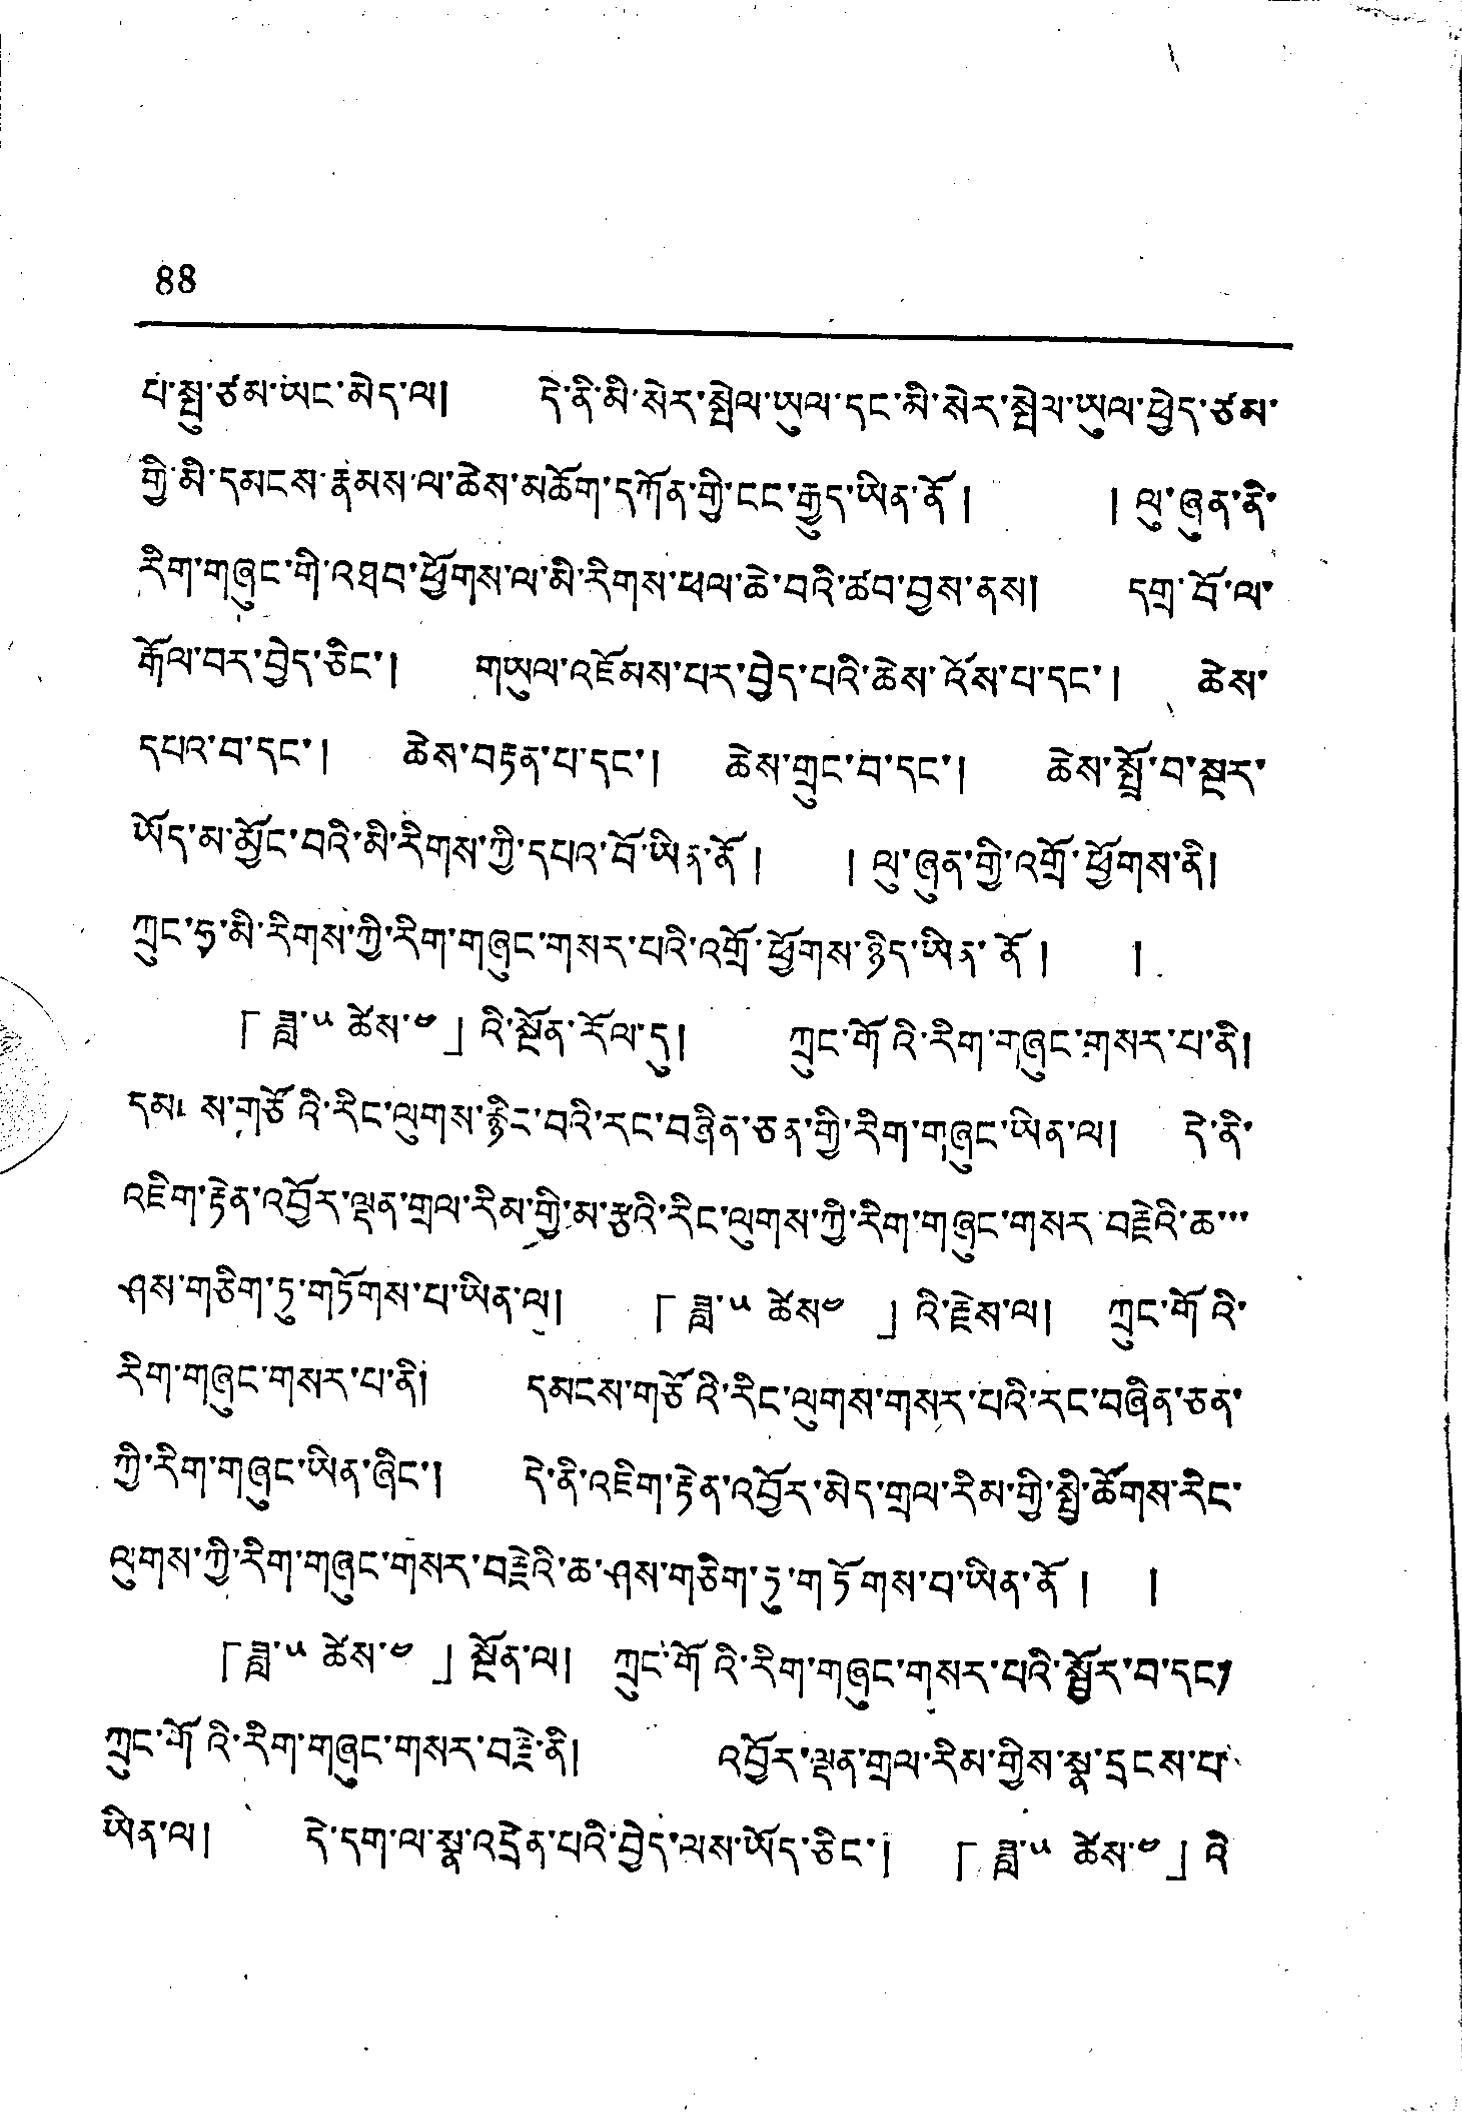88
པ་སྤུ་ཙམ་ཡང་མེད་ལ། དེ་ནི་མི་སེར་སྤེལ་ཡུལ་དང་མི་སེར་སྤེལ་ཡུལ་ཕྱེད་ཙམ་
གྱི་མི་དམངས་རྣམས་ལ་ཆེས་མཆོག་དཀོན་གྱི་ངང་རྒྱུད་ཡིན་ནོ ། །ལུ་ཞུན་ནི་
རིག་གཞུང་གི་འཐབ་ཕྱོགས་ལ་མི་རིགས་ཕལ་ཆེ་བའི་ཚབ་བྱས་ནས། དགྲ་བོ་ལ་
རྒོལ་བར་བྱེད་ཅིང་། གཡུལ་འཇོམས་པར་བྱེད་པའི་ཆེས་འོས་པ་དང་། ཚེས་
དཔའ་བ་དང་། ཆེས་བརྟན་པ་དང་། ཆེས་གྲུང་བ་དང་། ཆེས་སྤྲོ་བ་སྔར་
ཡོད་མ་སྱོང་བའི་མི་རིགས་ཀྱི་དཔའ་བོ་ཡིན་ནོ། །ལུ་ཞན་གྱི་འགྲོ་ཕྱོགས་ནི།
ཀྲུང་ཧྭ་མི་རིགས་ཀྱི་རིག་གཞུང་གསར་པའི་འགྲོ་ཕྱོགས་ཉིད་ཡིན་ནོ། །
「ཟླ་༥ ཚེས་༤」འི་སྔོན་རོལ་དུ། ཀྲུང་གོའི་རིག་གཞུང་གསར་པ་ནི།
དམངས་གཙོའི་རིང་ལུགས་རྙིང་བའི་རང་བཞིན་ཅན་གྱི་རིག་གཞུང་ཡིན་ལ། དེ་ནི་
འཇིག་རྟེན་འབྱོར་ལྡན་གྲལ་རིམ་གྱི་མ་རྩའི་རིང་ལུགས་ཀྱི་རིག་གཞུང་གསར་བརྗེའི་ཆ་་་
ཤས་གཅིག་ཏུ་གཏོགས་པ་ཡིན་ལ། 「ཟླ་༥ ཚེས༤ 」འི་རྗེས་ལ། ཀྲུང་གོའི་
རིག་གཞུང་གསར་པ་ནི། དམངས་གཙོའི་རིང་ལུགས་གསར་པའི་རང་བཞིན་ཅན་
ཀྱི་རིག་གཞུང་ཡིན་ཞིང་། དེ་ནི་འཇིག་རྟེན་འབྱོར་མེད་གྲལ་རིམ་གྱི་སྤྱི་ཚོགས་རིང་
ལུགས་ཀྱི་རིག་གཞུང་གསར་བརྗེའི་ཆ་ཤས་གཅིག་ཏུ་གཏོགས་བ་ཡིན་ནོ། །
「ཟླ་༥ ཚེས་༤ 」སྔོན་ལ། ཀྲུང་གོའི་རིག་གཞུང་གསར་པའི་སྦྱོར་བ་དང་།
ཀྲུང་གོའི་རིག་གཞུང་གསར་བརྗེ་ནི། འབྱོར་ལྡན་གྲལ་རིམ་གྱིས་སྣ་དྲངས་པ་
ཡིན་ལ། དེ་དག་ལ་སྣ་འདྲེན་པའི་བྱེད་ལས་ཡོད་ཅིང་། 「ཟླ་༥ ཚེས་༤」འི་
